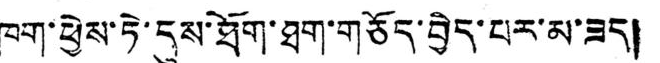ཁག་ཕྱེས་ཏེ་དུས་ཐོག་ཐག་གཅོད་བྱད་པར་མ་ཟད།
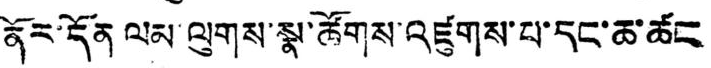ནོར་དོན ལམ་ལུགས་སྣ་ཚོགས་འཛུགས་པ་དང་ཆ་ཚང
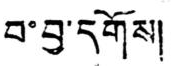བ་བྱ་དགོས།
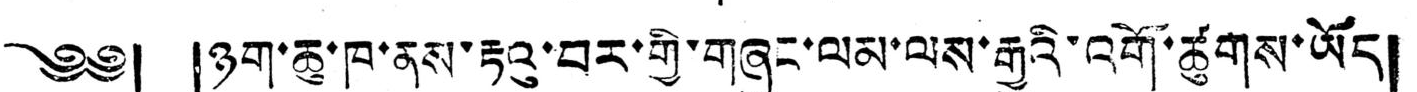༄༅། །ཉག་ཆུ་ཁ་ནས་རྟའུ་བར་གྱི་གཞུང་ལམ་ལས་རྒྱུའི་འགོ་ཚུགས་ཡོད།
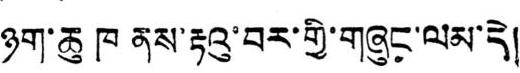ཉག་ཆུ ཁ ནས་རྟའུ་བར་གྱི་གཞུང་ལམ་དེ།
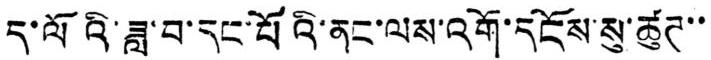ད་ལོའི་ཟླ་བ་དང་པོའི་ནང་ལས་འགོ་དངོས་སུ་ཚུཊ་་
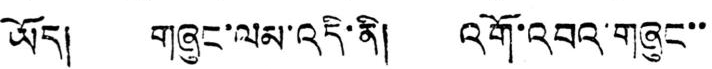ཡོད། གཞུང་ལམ་འདི་ནི། འགོ་འབའ་གཞུང་་
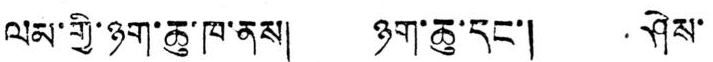ལམ་གྱི་ཉག་ཆུ་ཁ་ནས། ཉག་ཆུ་དང་། ཤེས་
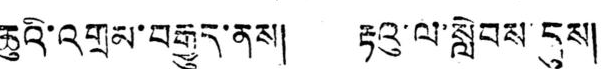ཆུའི་འགྲམ་བརྒྱུད་ནས། རྟའུ་ལ་སླེབས་དུས།
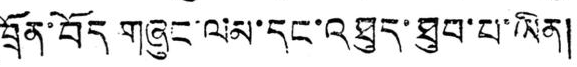ཁྲོན་བོད གཞུང་ལམ་དང་འཐུད་ཐུབ་པ་ཡིན།
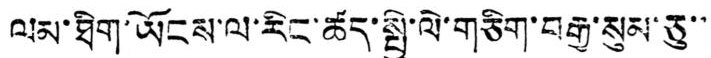ལམ་ཐིག་ཡོངས་ལ་རིང་ཚད་སྤྱི་ལེ་གཅིག་བརྒྱ་སུམ་ཅུ་་
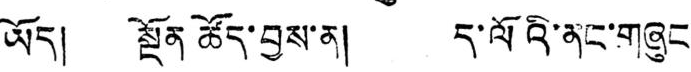ཡོད། སྔོན ཚོད་བྱས་ན། ད་ལོའི་ནང་གཞུང་
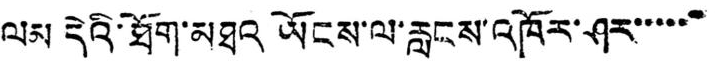ལམ དེའི་ཐོག་མཐའ ཡོངས་ལ་རླངས་འཁོར་ཤར་་་་་་
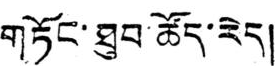གཏོང་ཐུབ་ཚོད་རེད།
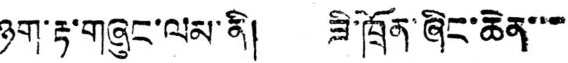ཉག་རྟ་གཞུང་ལམ་ནི། ཟི་ཁྲིན་ཞིང་ཆེན་་་
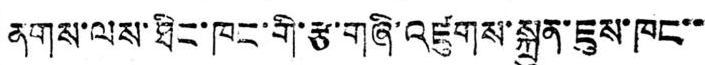ནགས་ལས་ཐིང་ཁང་གི་རྩ་གཞི་འཛུགས་སྐྲུན་ཇུས་ཁང་་
